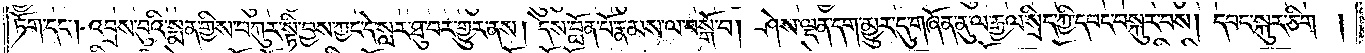ཏོག་དང༌། འབྲས་བུའི་སྨན་གྱིས་བཀུར་སྟི་བྱས་ཀྱང་དེ་སླར་ཐུ་བར་གྱུར་ནས། དེས་བློན་པོ་རྣམས་ལ་བསྒོ་བ། ཤེས་ལྡན་དག་མྱུར་དུ་གཞོན་ནུ་ལ་རྒྱལ་སྲིད་ཀྱི་དབང་བསྐུར་བས། དབང་སྐུར་ཅིག །
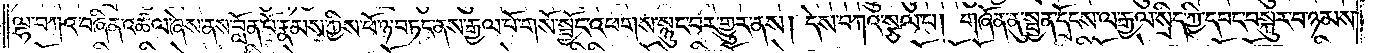ལྷ་བཀའ་བཞིན་འཚལ་ཞེས་ནས་བློན་པོ་རྣམས་ཀྱིས་ཕོ་ཉས་བཏང་ནས་རྒྱལ་པོ་གསོ་སྦྱོང་འཕགས་སྙུང་བར་གྱུར་ནས། དེས་བཀའ་སྩལ་པ། གཞོན་ནུ་སྤྱན་དྲོངས་ལ་རྒྱལ་སྲིད་ཀྱི་དབང་བསྐུར་བ་ཉམས་
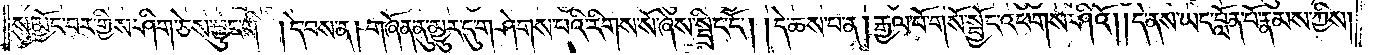སུ་མྱོང་བར་གྱིས་ཤིག་ཅེས་བྱུང་གི། དེ་བས་ན། གཞོན་ནུ་མྱུར་དུ་གཤེགས་པའི་རིགས་སོ་ཞེས་སྤྲིང་ངོ༌། །དེ་ཆས་པ་ན། རྒྱལ་པོ་གསོ་སྦྱོང་འཕགས་ཤིའོ། །དེ་ནས་ཡང་བློན་པོ་རྣམས་ཀྱིས།
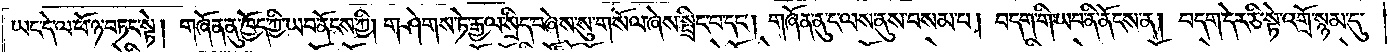ཡང་དེ་ལ་ཕོ་ཉ་བཏང་སྟེ། གཞོན་ནུ་ཁྱོད་ཀྱི་ཡབ་ནོངས་ཀྱི། གཤེགས་ཏེ་རྒྱལ་སྲིད་བཞེས་སུ་གསོལ་ཞེས་སྤྲིང་བ་དང༌། གཞོན་ནུ་ང་ལས་ནུས་བསམ་པ། བདག་གི་ཡབ་ནི་ནོངས་ན། བདག་དེར་ཅི་སྟེ་འགྲོ་སྙམ་དུ་
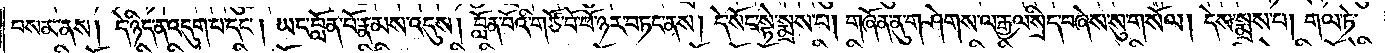བསམ་ནས། དེ་ཉིད་ན་འདུག་པ་དང༌། ཡང་བློན་པོ་རྣམས་འདུས། བློན་པོའི་གཙོ་བོ་ཕོ་ཉར་བཏང་ནས། དེ་སོང་སྟེ་སྨྲས་པ། གཞོན་ནུ་གཤེགས་པ་ལ་རྒྱལ་སྲིད་བཞེས་སུ་གསོལ། །དེས་སྨྲས་པ། གལ་ཏེ་
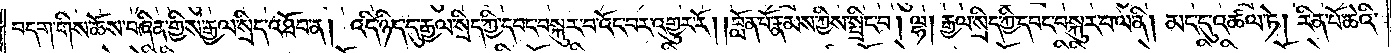བདག་གིས་ཆོས་བཞིན་གྱིས་རྒྱལ་སྲིད་འཐོབ་ན། འདི་ཉིད་དུ་རྒྱལ་སྲིད་ཀྱི་དབང་བསྐུར་བ་འོང་བར་འགྱུར་རོ། །བློན་པོ་རྣམས་ཀྱིས་སྤྲིང་བ། ལྷ། རྒྱལ་སྲིད་ཀྱི་དབང་བསྐུར་བ་ལ་ནི། མང་དུ་འཚལ་ཏེ། རིན་པོ་ཆེའི་
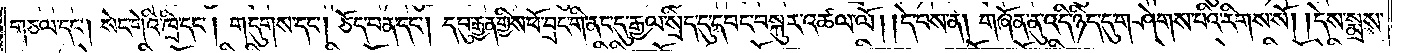གཅལ་དང༌། སེང་གེའི་ཁྲི་དང༌། གདུགས་དང༌། ཅོད་པན་དང༌། དབུ་རྒྱན་གྱིས་ཕོ་བྲང་གི་ནང་དུ་རྒྱལ་སྲིད་དུ་དབང་བསྐུར་འཚལ་ལོ། །དེ་བས་ན། གཞོན་ནུ་འདི་ཉིད་དུ་གཤེགས་པའི་རིགས་སོ། །དེས་སྨྲས་
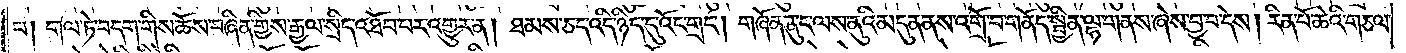པ། གལ་ཏེ་བདག་གིས་ཆོས་བཞིན་གྱིས་རྒྱལ་སྲིད་འཐོབ་པར་འགྱུར་ན། ཐམས་ཅད་འདི་ཉིད་དུ་འོང་གྲང༌། གཞོན་ནུ་ང་ལས་ནུའི་མདུན་ནས་འགྲོ་བ་གནོད་སྦྱིན་ལྷ་གནས་ཞེས་བྱ་བ་དེས། རིན་པོ་ཆེའི་གཅལ་
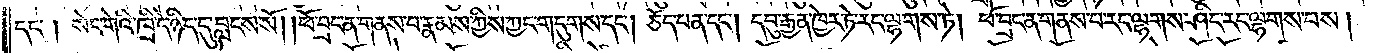དང༌། སེང་གེའི་ཁྲི་དེ་ཉིད་དུ་བླངས་སོ། །ཕོ་བྲང་ན་གནས་པ་རྣམས་ཀྱིས་ཀྱང་གདུགས་དང༌། ཅོད་པན་དང༌། དབུ་རྒྱན་ཁྱེར་ཏེ་རང་ལྷགས་ཏེ། ཕོ་བྲང་ན་གནས་པ་རང་ལྷགས་ཤིང་རང་ལྷགས་པས།
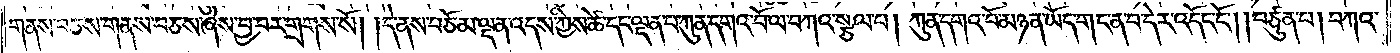གནས་བཅས་གནས་བཅས་ཞེས་བྱ་བར་གྲགས་སོ། །དེ་ནས་བཅོམ་ལྡན་འདས་ཀྱིས་ཚེ་དང་ལྡན་པ་ཀུན་དགའ་བོ་ལ་བཀའ་སྩལ་པ། ཀུན་དགའ་བོ་མཉན་ཡོད་གང་ན་བ་དེར་འདོང་ངོ༌། །བཙུན་པ། བཀའ་
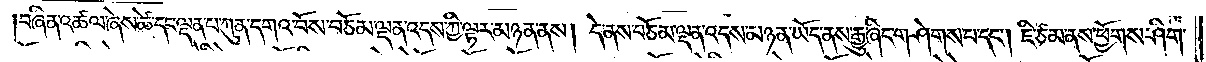བཞིན་འཚལ་ཞེས་ཚེ་དང་ལྡན་པ་ཀུན་དགའ་བོས་བཅོམ་ལྡན་འདས་ཀྱི་ལྟར་མཉན་ནས། དེ་ནས་བཅོམ་ལྡན་འདས་མཉན་ཡོད་ནས་རྒྱུ་ཞིང་གཤེགས་པ་དང༌། ཇི་ཙམ་ནས་ཕྱོགས་ཤིག་
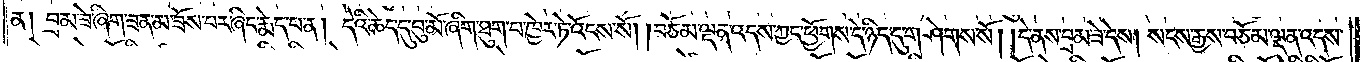ན། བྲམ་ཟེ་ཞིག་ཟན་མ་ཟོས་པར་ཞིང་རྨེད་པ་ན། དེའི་ཆེད་དུ་བུ་མོ་ཞིག་ཐུག་པ་ཁྱེར་ཏེ་འོངས་སོ། །བཅོམ་ལྡན་འདས་ཀྱང་ཕྱོགས་དེ་ཉིད་དུ་གཤེགས་སོ། །དེ་ནས་བྲམ་ཟེ་དེས། སངས་རྒྱས་བཅོམ་ལྡན་འདས་
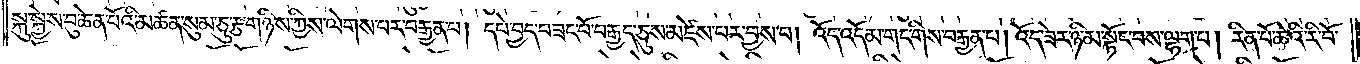སྐུ་སྐྱེས་བུ་ཆེན་པོའི་མཚན་སུམ་ཅུ་རྩ་གཉིས་ཀྱིས་ལེགས་པར་བརྒྱན་པ། དཔེ་བྱད་བཟང་པོ་བརྒྱད་ཅུས་མཛེས་པར་བྱས་པ། འོད་འདོམ་གང་གིས་བརྒྱན་པ། འོད་ཟེར་ཉི་མ་སྟོང་བས་ལྷག་པ། རིན་པོ་ཆེའི་རི་བོ་
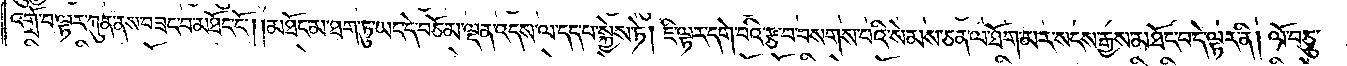འགྲོ་བ་ལྟར་ཀུན་ནས་བཟང་བ་མཐོང་ངོ༌། །མཐོང་མ་ཐག་ཏུ་ཡང་དེ་བཅོམ་ལྡན་འདས་ལ་དད་པ་སྐྱེས་ཏེ། ཇི་ལྟར་དགེ་བའི་རྩ་བ་བསགས་པའི་སེམས་ཅན་ལ་ཐོག་མར་སངས་རྒྱས་མཐོང་བ་དེ་ལྟར་ནི། ལོ་བཅུ་
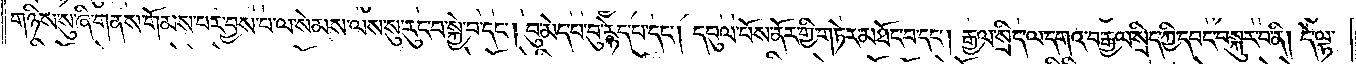གཉིས་སུ་ཞི་གནས་གོམས་པར་བྱས་པ་ལ་སེམས་ལས་སུ་རུང་བ་སྐྱེ་བ་དང༌། བུ་མེད་པ་བུ་རྙེད་པ་དང༌། དབུལ་པོས་ནོར་གྱི་གཏེར་མཐོང་བ་དང༌། རྒྱལ་སྲིད་ལ་དགའ་བ་རྒྱལ་སྲིད་ཀྱི་དབང་བསྐུར་བ་ནི། དེ་ལྟ་
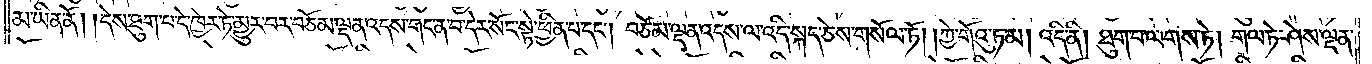མ་ཡིན་ནོ། །དེས་ཐུག་པ་དེ་ཁྱེར་ཏེ་མྱུར་བར་བཅོམ་ལྡན་འདས་གང་ན་བ་དེར་སོང་སྟེ་ཕྱིན་པ་དང༌། བཅོམ་ལྡན་འདས་ལ་འདི་སྐད་ཅེས་གསོལ་ཏོ། །ཀྱེ་གོའུ་ཏ་མ། འདི་ནི། ཐུག་པ་ལགས་ཏེ། གལ་ཏེ་ཤེས་ལྡན་
